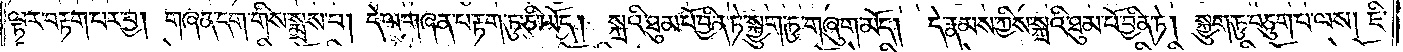ལྟར་བརྟག་པར་བྱ། གཞན་དག་གིས་སྨྲས་པ། དེ་ལ་གཞན་པ་རྟག་ཏུ་ཅི་ཡོད། སྐྲའི་ཐུམ་པོ་བྱིན་ཏེ་སྐྱུག་ཏུ་གཞུག་མོད། དེ་རྣམས་ཀྱིས་སྐྲའི་ཐུམ་པོ་བྱིན་ཏེ། སྐྱུག་ཏུ་བཅུག་པ་ལས། ཇི་
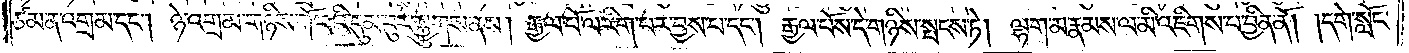ཙམ་ན་འགྲམ་དང༌། ཉེ་འགྲམ་གཉིས་ཀོ་བའི་དུམ་བུར་སྐྱུགས་ནས། རྒྱལ་པོ་ལ་རིགས་པར་བྱས་པ་དང༌། རྒྱལ་པོས་དེ་གཉིས་སྤངས་ཏེ། ལྷག་མ་རྣམས་ལ་མི་འཇིགས་པར་བྱིན་ནོ། །དགེ་སློང་
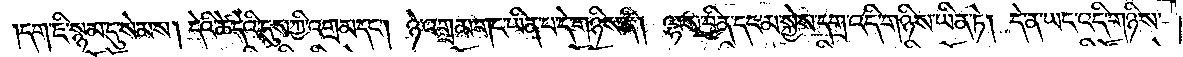དག་ཇི་སྙམ་དུ་སེམས། དེའི་ཚེ་དེའི་དུས་ཀྱི་འགྲམ་དང༌། ཉེ་འགྲམ་གང་ཡིན་པ་དེ་གཉིས་ནི། ལྷས་བྱིན་དང་མ་སྐྱེ་དགྲ་འདི་གཉིས་ཡིན་ཏེ། དེ་ན་ཡང་འདི་གཉིས་
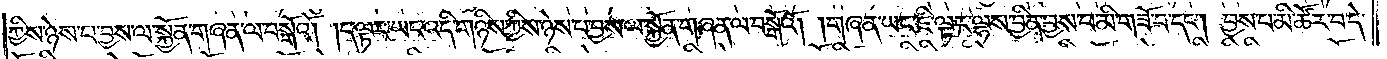ཀྱིས་ཉེས་པ་བྱས་ལ་སྐྱོན་གཞན་ལ་བསྒོའོ། །ད་ལྟར་ཡང་འདི་གཉིས་ཀྱིས་ཉེས་པ་བྱས་ལ་སྐྱོན་གཞན་ལ་བསྒོའོ། །གཞན་ཡང་ཇི་ལྟར་ལྷས་བྱིན་བྱས་པ་མི་གཟོ་བ་དང༌། བྱས་པ་མི་ཚོར་བ་དེ་
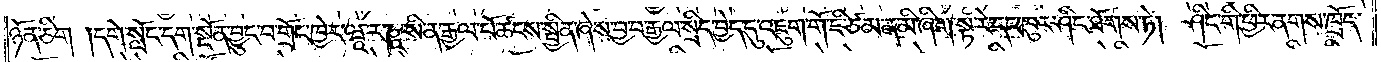ཉོན་ཅིག །དགེ་སློང་དག་སྔོན་བྱུང་བ་གྲོང་ཁྱེར་ཝཱ་ར་ཎཱ་སི་ན་རྒྱལ་པོ་ཚངས་སྦྱིན་ཞེས་བྱ་བ་རྒྱལ་སྲིད་བྱེད་དུ་འཇུག་གོ་ཇི་ཙམ་ན་མི་ཞིག་སྟ་རེ་དང་ཁུར་ཤིང་ཐོགས་ཏེ། ཤིང་གི་ཕྱིར་ནགས་ཁྲོད་
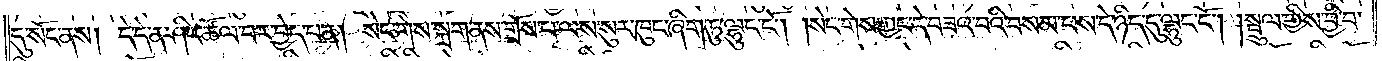དུ་སོང་ནས། དེ་དེ་ན་ཤིང་ཚོལ་བར་བྱེད་པ་ན། སེང་གེས་སྐྲག་ནས་གྲོས་པ་ལས་སུར་ཁུང་ཞིག་ཏུ་ལྷུང་ངོ༌། །སེང་གེས་ཀྱང་དེ་བཟའ་བའི་བསམ་པས་དེ་ཉིད་དུ་ལྷུང་ངོ༌། །སྦྲུལ་གྱིས་བྱི་བ་
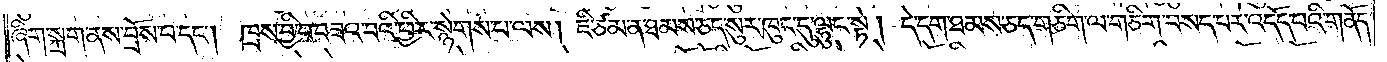ཞིག་སྐྲག་ནས་བྲོས་པ་དང༌། ཁྲས་བྱི་བ་བཟའ་བའི་ཕྱིར་སྙེགས་པ་ལས། ཇི་ཙམ་ན་ཐམས་ཅད་སུར་ཁུང་དུ་ལྷུང་སྟེ། དེ་དག་ཐམས་ཅད་གཅིག་ལ་གཅིག་བསད་པར་འདོད་པའི་གནོད་
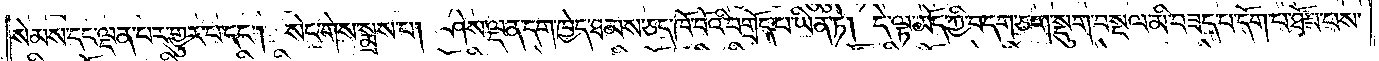སེམས་དང་ལྡན་པར་གྱུར་པ་དང༌། སེང་གེས་སྨྲས་པ། ཤེས་ལྡན་དག་ཁྱེད་ཐམས་ཅད་ཁོ་བོའི་བགྲོད་པ་ཡིན་ཏེ། དེ་ལྟ་མོད་ཀྱི་བདག་ཅག་སྡུག་བསྔལ་མི་བཟད་པ་དོག་པ་ཐོབ་པས་
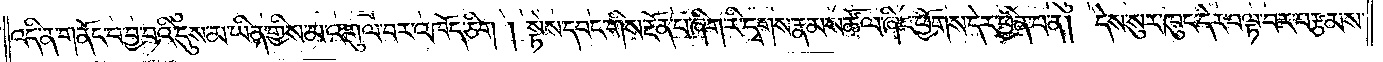འདི་ན་གནོང་བ་བྱ་བའི་དུས་མ་ཡིན་གྱིས་མ་འགུལ་བར་འཁོད་ཅིག །སྟེས་དབང་གིས་རྔོན་པ་ཞིག་རི་དྭགས་རྣམས་ཚོལ་ཞིང་ཕྱོགས་དེར་ཕྱིན་པ་ན། དེས་སུར་ཁུང་དེར་བལྟ་བར་བརྩམས་
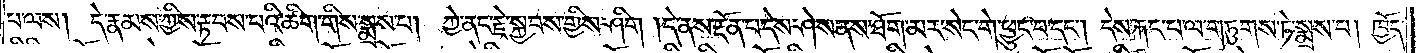པ་ལས། དེ་རྣམས་ཀྱིས་རྟབས་པའི་ཚིག་གིས་སྨྲས་པ། ཀྱེ་ནང་རྗེ་སྐྱབས་གྱིས་ཤིག །དེ་ནས་རྔོན་པ་དེས་ཤེས་ནས་ཐོག་མར་སེང་གེ་ཕྱུང་བ་དང༌། དེས་རྐང་པ་ལ་གཏུགས་ཏེ་སྨྲས་པ། ཁྱོད་
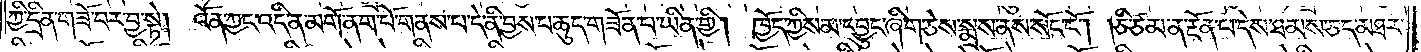ཀྱི་དྲིན་གཟོ་བར་བྱ་སྟེ། འོན་ཀྱང་འདི་ན་མགོ་ནག་པོ་གནས་པ་དེ་ནི་བྱས་པ་ཆུད་གཟོན་པ་ཡིན་གྱི། ཁྱོད་ཀྱིས་མ་དབྱུང་ཞིག་ཅེས་སྨྲས་ནས་སོང་ངོ༌། །ཅི་ཙམ་ན་རྔོན་པ་དེས་ཐམས་ཅད་མཐར་
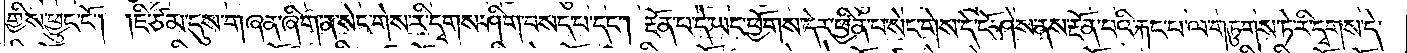གྱིས་ཕྱུང་ངོ༌། །ཇི་ཙམ་དུས་གཞན་ཞིག་ན་སེང་གེས་རི་དྭགས་ཤིག་བསད་པ་དང༌། རྔོན་པ་དེ་ཡང་ཕྱོགས་དེར་ཕྱིན་པ་སེང་གེས་དེ་ངོ་ཤེས་ནས་རྔོན་པའི་རྐང་པ་ལ་གཏུགས་ཏེ་རི་དྭགས་དེ་
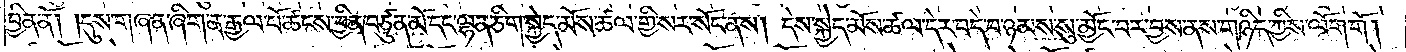བྱིན་ནོ། །དུས་གཞན་ཞིག་ན་རྒྱལ་པོ་ཚངས་བྱིན་བཙུན་མོ་དང་ལྷན་ཅིག་སྐྱེད་མོས་ཚལ་གྱི་སར་སོང་ནས། དེས་སྐྱེད་མོས་ཚལ་དེར་བདེ་བ་ཉམས་སུ་མྱོང་བར་བྱས་ནས་གཉིད་ཀྱིས་ལོག་གོ།
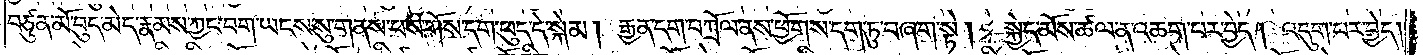བཙུན་མོ་བུད་མེད་རྣམས་ཀྱང་བག་ཡངས་སུ་གནས་པས་གོས་དག་ཕུད་དེ་སྐེམ། རྒྱན་དག་བཀྲོལ་ནས་ཕྱོགས་དག་ཏུ་བཞག་སྟེ། སྐྱེད་མོས་ཚལ་ན་འཆག་པར་བྱེད། འདུག་པར་བྱེད།
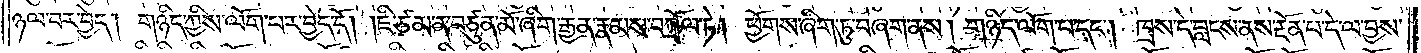ཉལ་བར་བྱེད། གཉིད་ཀྱིས་ལོག་པར་བྱེད་དོ། །ཇི་ཙམ་ན་བཙུན་མོ་ཞིག་རྒྱན་རྣམས་བཀྲོལ་ཏེ། ཕྱོགས་ཞིག་ཏུ་བཞག་ནས། གཉིད་ལོག་པ་དང༌། ཁྲས་དེ་བླངས་ནས་རྔོན་པ་དེ་ལ་བྱས་
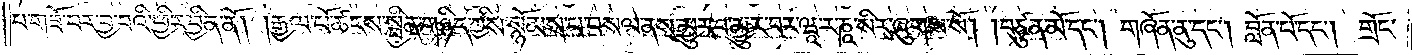པ་གཟོ་བར་བྱ་བའི་ཕྱིར་བྱིན་ནོ། །རྒྱལ་པོ་ཚངས་སྦྱིན་གཉིད་ཀྱིས་སྙོམས་པ་བསལ་ནས་མྱུར་བ་མྱུར་བར་ཝཱ་ར་ཎཱ་སིར་ཞུགས་སོ། །བཙུན་མོ་དང༌། གཞོན་ནུ་དང༌། བློན་པོ་དང༌། གྲོང་
